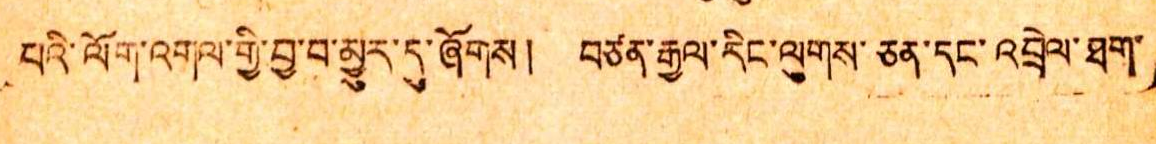པའི་ལོག་འགལ་གྱི་བྱ་བ་མྱུར་དུ་ཞོགས ། བཙན་རྒྱལ་རིང་ལུགས་ཅན་དང་འབྲེལ་ཐག་
